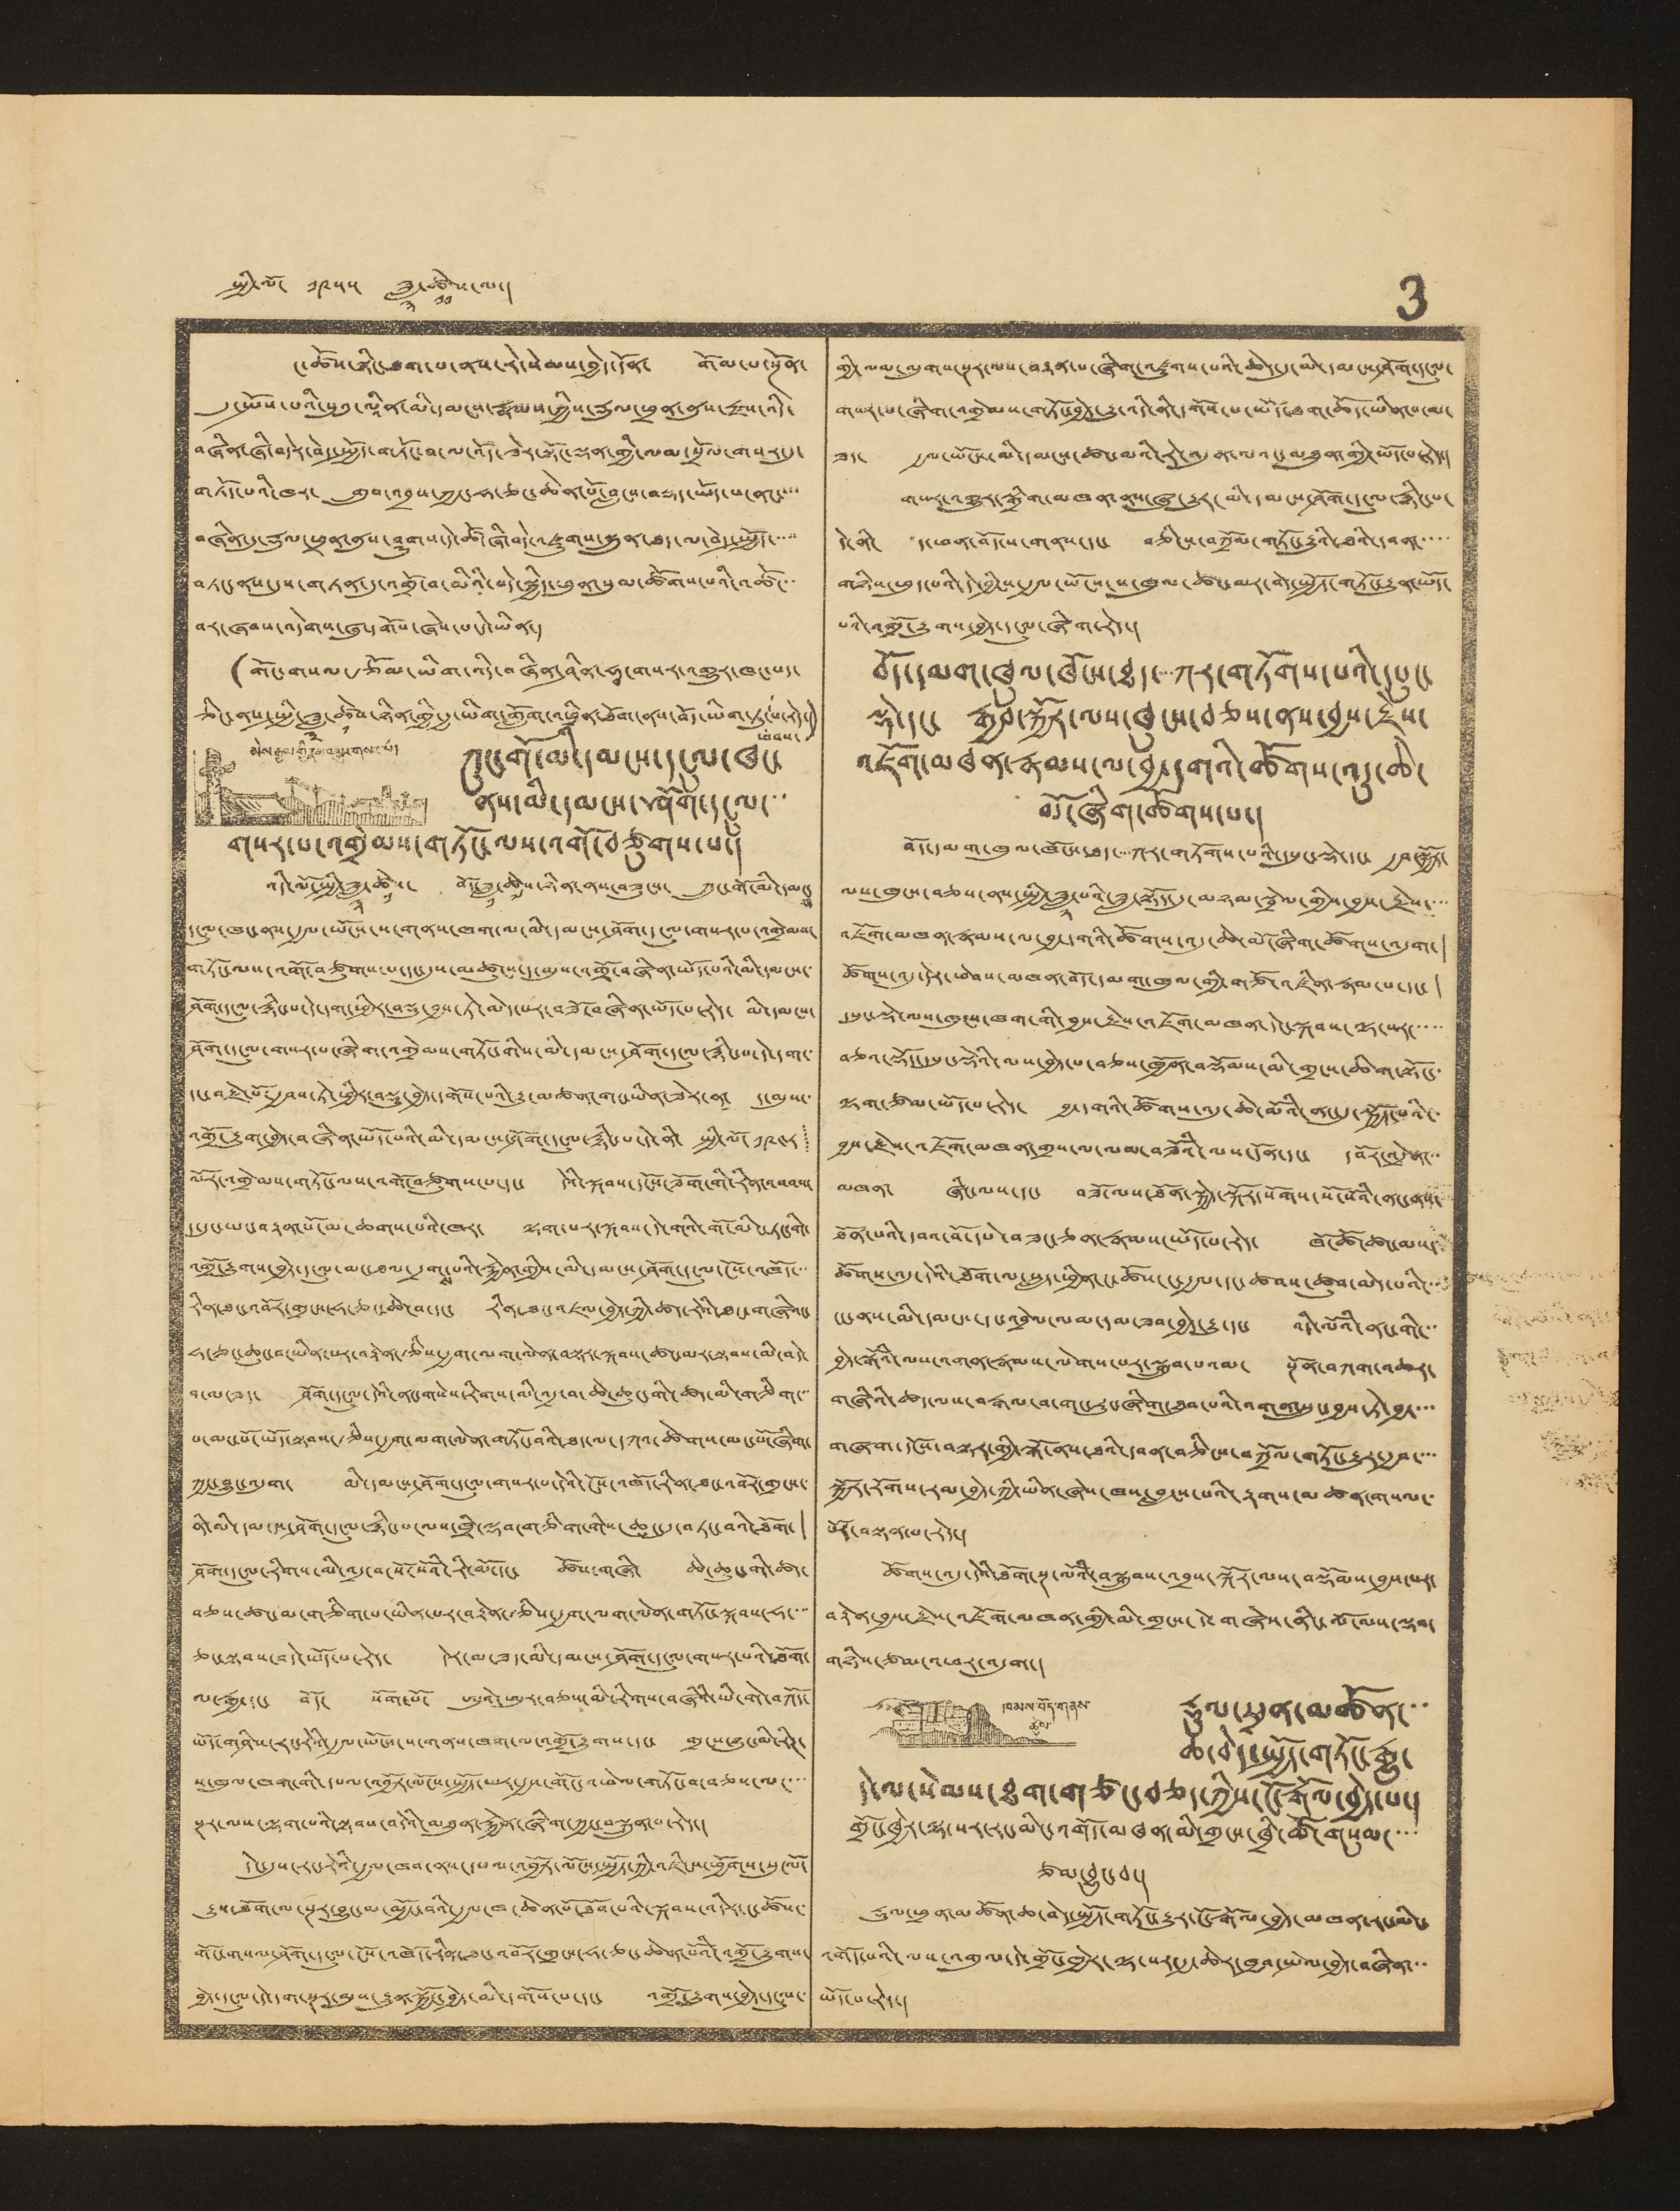སྤྱི་ལོ་ ༡༩༥༥ ཟླ་
༣
ཚེས་
༡༡
ལ་། 3
ང་ཚོས་སྙིང་ཐག་པ་ནས་རེ་སེམས་བྱེད་དོན་ གོམ་པ་སྔོན་
དུ་སྤོས་པའི་སུའུ་ལཱིན་མི་དམངས་ཀྱིས་རྡུལ་ཕྲན་ནུས་རྫས་འདི་
བཞིན་ཞི་བདེར་བེད་སྤྱོད་གཏོང་བ་ལ་འོད་ཟེར་སྟོང་ལྡན་གྱི་ལམ་སྲོལ་གསར་དུ་
གཏོད་པའི་ཁར་ གྲུབ་འབྲས་ཀྱང་ཧ་ཅང་ཆེན་པོ་བླངས་བསྡད་ཡོད་པ་ནང་་་་
བཞིན་དུ་རྡུལ་ཕྲན་ནུས་ཤུགས་དེ་ཚོ་ཞི་བདེ་འཛུགས་སྐྲུན་ཐད་ལ་བེད་སྤྱོད་་་་་
བཏང་ནས་དུས་གཏན་དུ་འགྲོ་བ་མིའི་བདེ་སྐྱིད་ཕུན་སུམ་ཚོགས་པའི་འཚོ་་་
བར་ཞབས་འདེགས་ཞུ་དགོས་ཞེས་པ་དེ་ཡིན་།
(གོང་གསལ་རྩོམ་ཡིག་འདི་བཞིན་ཤིན་ཧྭ་གསར་འགྱུར་ཁང་པད་
ཅིང་ནས་སྤྱི་ཟླ་
༣
ཚེས་
༡
ཉིན་གྱི་རྒྱ་ཡིག་གློག་འཕྲིན་ཐོག་ནས་བོད་ཡིག་ཏུ་
ཕབས་
པ་རེད་།)
མེས་རྒྱལ་གྱི་རྣམ་འགྱུར་གསར་པ།
ཀྲུང་གོ་མི་དམངས་དངུལ་ཁང་
ནས་མི་དམངས་ཤོག་དངུལ་་་
གསར་པ་འགྲེམས་གཏོང་ལས་འགོ་བཙུགས་པ་།
འདི་ལོ་སྤྱི་ཟླ་
༣
ཚེས་
༡
བོད་ཟླ་
༡
ཚེས་
༧
ཉིན་ནས་བཟུངས་ ཀྲུང་གོ་མི་དམང་
ས
དངུལ་ཁང་ནས་རྒྱལ་ཡོངས་ས་གནས་ཁག་ལ་མི་དམངས་ཤོག་དངུལ་གསར་པ་འགྲེམས་
གཏོང་ལས་འགོ་བཙུགས་པ་དང་དུས་མཚུངས་ད་མུས་འགྲོ་བཞིན་ཡོད་པའི་མི་དམངས་་
ཤོག་དངུལ་རྙིང་པ་དེ་དག་ཕྱིར་བསྡུ་བྱས་ཏེ་མེད་པར་བཟོ་བཞིན་ཡོད་པ་རེད་ མི་དམངས་
ཤོག་དངུལ་གསར་པ་ཞིག་འགྲེམས་གཏོང་གིས་མི་དམངས་ཤོག་དངུལ་རྙིང་པ་དེ་དག་་
དང་བརྗེ་པོ་རྒྱབས་ཏེ་ཕྱིར་བསྡུ་བྱེད་དགོས་པའི་རྒྱུ་མཚན་གང་ཡིན་ཟེར་ན་ ད་མུས་་
འགྲོ་རྒྱུག་བྱེད་བཞིན་ཡོད་པའི་མི་དམངས་ཤོག་དངུལ་རྙིང་པ་དེ་ནི་ སྤྱི་ལོ་ ༡༩༥༨
ལོར་འགྲེམས་གཏོང་ལས་འགོ་བཙུགས་པ་དང་ དེའི་སྐབས་དངོས་ཟོག་གི་རིན་འབབས་
ད་དུང་ཡང་བརྟན་པོ་མ་ཆགས་པའི་ཁར་ ལྷག་པར་སྐབས་དེ་གའི་གོ་མིང་ཏང་གི་
འགྲོ་རྒྱུགས་བྱེད་དངུལ་མང་ཐལ་དྲག་
ས
པའི་རྐྱེན་གྱིས་མི་དམངས་ཤོག་དངུལ་ངོས་འཁོད་་་
རིན་ཐང་འབོར་གྲངས་ཧ་ཅང་ཆེ་བ་དང་ རིན་ཐང་འཇལ་བྱེད་ཀྱི་ཚད་རེའི་ཐང་གཞིའང་
ཧ་ཅང་ཆུང་བ་ཡིན་པར་བརྟེན་རྩིས་རྒྱག་ལག་ལེན་བསྟར་སྐབས་ཚང་མར་ལྟབས་མི་བདེ་
བ་མ་ཟད་ ཤོག་དངུལ་དེའི་གསེས་རིགས་མི་འདྲ་བ་ཆེ་ཆུང་གི་ཚད་མི་གཅིག་་་
པ་མང་པོ་ཡོད་སྟབས་རྩིས་རྒྱག་ལག་ལེན་གཏོང་བའི་ཐད་ལ་དཀའ་ཚེགས་མང་པོ་ཞིག་
ཀྱང་བྱུང་འདུག་ མི་དམངས་ཤོག་དངུལ་གསར་པ་དེའི་ངོས་འཁོད་རིན་ཐང་འབོར་གྲངས་
ནི་མི་དམངས་ཤོག་དངུལ་རྙིང་པ་ལས་ཁྲི་ལྡབ་གཅིག་གིས་ཆུང་དུ་བཏང་བའི་ཐོག་ །
ཤོག་དངུལ་རིགས་མི་འདྲ་བ་སོ་སོའི་རི་མོ་དང་ ཚོས་གཞི་ ཆེ་ཆུང་གི་ཚད་
བཅས་ཚང་མ་གཅིག་པ་ཡིན་པར་བརྟེན་རྩིས་རྒྱག་ལག་ལེན་གཏོང་སྐབས་ཧ་་་་
ཅང་སྟབས་བདེ་ཡོད་པ་རེད་ དེར་མ་ཟད་མི་དམངས་ཤོག་དངུལ་གསར་པའི་ཐོག་
ལ་རྒྱ་དང་ བོད་ སོག་པོ་ ཨུའེ་ཨུར་བཅས་མི་རིགས་བཞིའི་ཡི་གེ་བཀོད་
ཡོད་གཤིས་རང་རེའི་རྒྱལ་ཡོངས་ས་གནས་ཁག་ལ་འགྲོ་རྒྱུགས་དང་ གྲངས་ཉུང་མི་རིཊ་
ས་ཁུལ་ཁག་གི་དཔལ་འབྱོར་ལོངས་སྤྱོད་ཡར་རྒྱས་གོང་འཕེལ་གཏོང་བ་བཅས་ལ་་་་
སྔར་ལས་ལྷག་པའི་སྟབས་བདེའི་མཐུན་རྐྱེན་ཞིག་ཀྱང་བསྐྲུན་པ་རེད་།
དེང་དུས་རང་རེའི་རྒྱལ་ཁབ་ནས་དཔལ་འབྱོར་ལོངས་སྤྱོད་ཀྱི་འཛིངས་ཕྱོགས་སུ་ལོ་
རྒྱུས་ཐོག་ལ་སྔར་བྱུང་མ་མྱོང་བའི་རྒྱལ་ཁ་ཆེན་པོ་ཐོབ་པའི་སྐབས་འདིར་ང་ཚོས་་
གོང་གསལ་ཤོག་དངུལ་ངོས་འཁོད་རིན་ཐང་འབོར་གྲངས་ཧ་ཅང་ཆེན་པོའི་འགྲོ་རྒྱུགས་
བྱེད་དངུལ་དེ་དག་སྔར་མུས་རྒྱུན་སྐྱོང་བྱེད་མི་དགོས་པ་དང་ འགྲོ་རྒྱུགས་བྱེད་དངུལ་
གྱི་ལམ་ལུགས་སྔར་ལས་བརྟན་པ་ཞིག་འཛུགས་པའི་ཆེད་དུ་མི་དམངས་ཤོག་དངུལ་
གསར་པ་ཞིག་འགྲེམས་གཏོང་བྱེད་རྒྱུ་འདི་ནི་དགོས་པ་ཡོད་ཐག་ཆོད་ཡིན་པ་མ་
ཟད་ རྒྱལ་ཡོངས་མི་དམངས་ཚང་མའི་རེ་འདུན་ལའང་མཐུན་གྱི་ཡོད་པ་རེད་།
གསར་འགྱུར་སྒྲིག་མཁན་ནས་རྒྱུར་མི་དམངས་ཤོག་དངུལ་རྙིང་པ་
དེ་ནི་ ད་ཕན་བོད་ས་གནས་དང་ བཅིངས་བཀྲོལ་གཏོང་རྒྱུའི་ཐའི་དབན་་་་་
གཉིས་ཕུད་པའི་དེ་བྱིངས་རྒྱལ་ཡོངས་ས་ཁུལ་ཚང་མར་བེད་སྤྱོད་གཏོང་རྒྱུན་ཡོད་
པའི་འགྲོ་རྒྱུགས་བྱེད་དངུལ་ཞིག་རེད་།
བོད་དམག་ཁུལ་ཁོངས་ཐད་་་་ཀར་གཏོགས་པའི་དཔུང་
ལྡེ་དང་ རྒྱབ་སྐྱོར་ལསཁུངས་བཅས་ནས་བྱས་རྗེས་
འཇོག་མཁན་རྣམས་ལ་བྱ་དགའི་ཚོགས་འདུ་ཆེ་
མོ་ཞིག་ཚོགས་པ་།
བོད་དམག་ཁུལ་ཁོངས་ཐད་་་་ཀར་གཏོགས་པའི་དཔུང་སྡེ་དང་ རྒྱབ་སྐྱོར་
ལས་ཁུངས་བཅས་ནས་སྤྱི་ཟླ་
༢
པའི་ཟླ་སྟོད་དུ་མཉམ་སྦྲེལ་གྱིས་བྱས་རྗེས་་་་
འཇོག་མཁན་རྣམས་ལ་བྱ་དགའི་ཚོགས་འདུ་ཆེ་མོ་ཞིག་ཚོགས་འདུག་ །
ཚོགས་འདུ་དེར་ཕེབས་མཁན་བོད་དམག་གྱི་གཙོ་འཛིན་རྣམ་པ་དང་ །
དཔུང་སྡེ་ལས་ཁུངས་ཁག་གི་བྱས་རྗེས་འཇོག་མཁན་དེང་སྐབས་ལྷ་སར་་་་་
བཅའ་སྡོད་དཔུང་སྡེའི་ལས་བྱེད་པ་བཅས་ཁྱོན་བསྡོམས་མི་གྲངས་ཆིག་སྟོང་་
ལྷག་ཙམ་ཡོད་པ་རེད་ བྱ་དགའི་ཚོགས་འདུ་ཆེ་མོའི་ནང་དུ་སྐྱོད་པའི་་
བྱས་རྗེས་འཇོག་མཁན་གྲས་ལ་ལམ་བཟོའི་ལས་དོན་དང་ དབོར་འདྲེན་་་
མཁན་ ཞིང་ལས་དང་ བཟོ་ལས་ཐོན་སྐྱེད་སྐོར་སོགས་སོ་སོའི་ནང་ནས་
ཐོན་པའི་དབའ་བོ་དཔེ་བཟང་ཅན་རྣམས་ཡོད་པ་རེད་ ཁོ་ཚོ་ཚང་མས་
ཚོགས་འདུ་དེའི་ཐོག་ལ་སླད་ཕྱིན་ང་ཚོས་ང་རྒྱལ་དང་ཚབས་ཚུབ་མེད་པའི་་་
ངང་ནས་མི་དམངས་དང་འབྲེལ་ལམ་དམ་ཟབ་བྱེད་རྒྱུ་དང་ འདིའི་ལོའི་ནང་གི་་་
བྱེད་སྒོའི་ལས་འགན་རྣམས་ལེགས་པར་སྒྲུབ་པའམ་ སྔོན་བཀག་འཆར་
གཞིའི་ཚད་ལས་བརྒལ་བ་གང་རུང་ཞིག་ཐུབ་པའི་འགན་སྲུང་བྱས་ཏེ་བྱ་་་་
གཞག་དངོས་བསྟར་གྱི་སྒོ་ནས་ཐའི་དབན་བཅིངས་བཀྲོལ་གཏོང་རྒྱུར་རྒྱབ་་་་
སྐྱོར་རོགས་རམ་བྱེད་ཀྱི་ཡིན་ཞེས་ཁས་བླངས་པའི་རྟགས་མཚན་གསལ་་
པོར་བསྟན་པ་རེད་།
ཚོགས་འདུ་དེའི་ཐོག་སྔ་ལོའི་བསྒྲུབས་འབྲས་སྐོར་ལས་བསྡོམས་བྱས་པར་
བརྟེན་བྱས་རྗེས་འཇོག་མཁན་གྱི་མི་གྲངས་དེ་གཞེས་ནིང་ལོ་ལས་ལྡབ་
གཉིས་ཙམ་འཕར་འདུག་།
ཁམས་བོད་གནས་
ཚུལ་
རྡུལ་ཕྲན་མཚོན་་་
ཆ་བེད་སྤྱོད་གཏོང་རྒྱུ་
དེ་ལ་སེམས་ཐག་གཙང་བཅད་ཀྱིས་ངོ་རྒོལ་བྱེད་པ་།
གྲོང་ཁྱེར་ལྷ་སར་རང་མིང་འགོ་མཁན་མི་གྲངས་ཁྲི་ཚོ་གསུམ་་་་
ཙམ་བྱུང་བ་།
རྡུལ་ཕྲན་མཚོན་ཆ་བེད་སྤྱོད་གཏོང་རྒྱུར་ངོ་རྒོལ་བྱེད་མཁན་རང་མིང་
འགོད་པའི་ལས་འགུལ་དེ་གྲོང་ཁྱེར་ལྷ་སར་རྒྱ་ཆེར་ཁྱབ་སྤེལ་བྱེད་བཞིན་་་
ཡོད་པ་རེད་།
